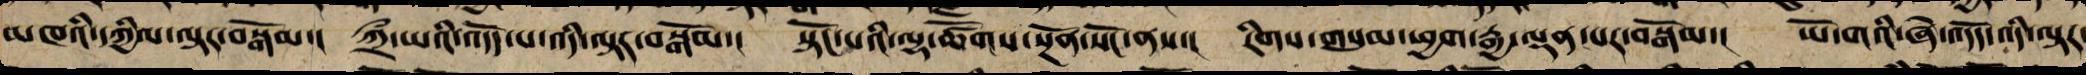མཁའི་དཀྱིལ་ལྟར་བསྒོམ་། ཀྲྀ་ཡའི་འདོད་པ་འདི་ལྟར་བསྒོམ་། སྟོང་པའི་ལྷ་ཚོགས་སྔོན་སོང་ནས་། རིགས་གསུམ་ཕྱག་རྒྱ་ལྡན་པར་བསྒོམ་། ཡོ་གའི་ཞེ་འདོད་འདི་ལྟར་
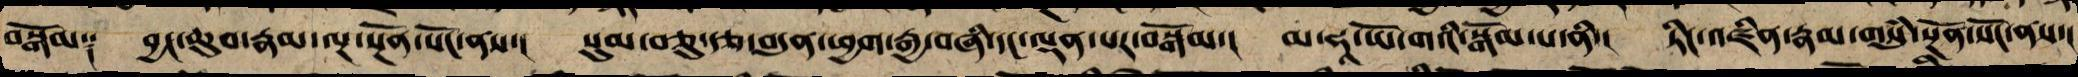བསྒོམ༑ བྱང་ཆུབ་རྣམ་ལྔ་སྔོན་སོང་ནས་། སུམ་བཅུ་རྩ་བདུན་ཕྱག་རྒྱ་བཞི་དང་ལྡན་པར་བསྒོམ་། མ་ཧཱ་ཡོ་གའི་བསྒོམ་པ་ནི་། ཏིང་འཛིན་རྣམ་གསུཾ་སྔོན་སོང་ནས་།
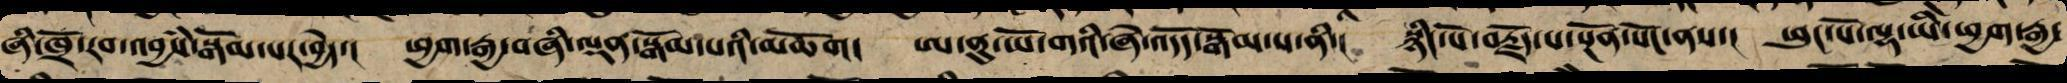ཞི་ཁྲོ་རབ་འབྱཾས་སྒོམ་པར་བྱེད་། ཕྱག་རྒྱ་བཞི་ལྡན་སྒོམ་པའི་མཆོག། ཨ་ནུ་ཡོ་གའི་ཞེ་འདོད་སྒོམ་པ་ནི་། སྙིང་པོ་བརྗོད་པ་སྔོན་སོང་ནས་། ཕུང་པོ་ལྷ་ཡི་ཕྱག་རྒྱ་
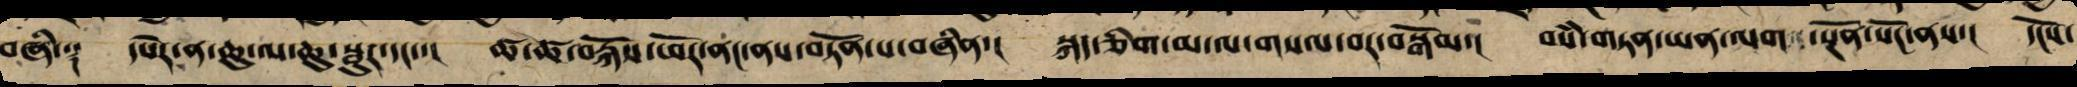བཞི༑ དཔེར་ན་ཆུ་ལས་ཆུ་བུར་དང་་། ཚྭ་ཚྭ་བརྐོས་ཕོར་ནང་ནས་བཏོན་པ་བཞིན་། སྐད་ཅིག་མ་ལ་གསལ་བར་བསྒོམ་། བསཾ་གཏན་ཡན་ལག་སྔོན་སོང་ནས་། དངོས་
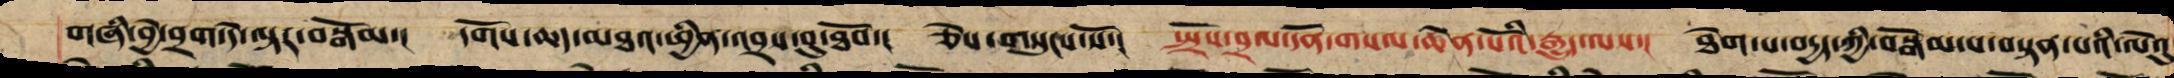གཞི་བྱེ་བྲག་དེ་ལྟར་བསྒོམ་། དགོས་ཆད་མཐར་ཕྱིན་འབྲས་བུ་ཐོབ་། ཅེས་གསུངས་སོ་། སྤྲོས་བྲལ་དོན་གསལ་ཆེན་པོའི་རྒྱུད་ལས་། ཐེག་པ་བདྱད་ཀྱི་བསྒོམ་པ་བསྟན་པའི་ལེའུ་
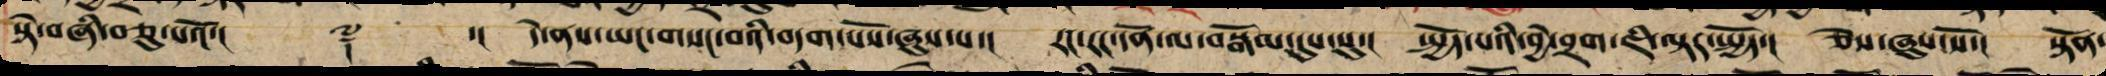སྟེ་བཞི་བཅུ་པའོ་།། ༈ ་།། དེ་ནས་ཡང་གསང་བའི་བདག་པོས་ཞུས་པ་། རང་རང་དོན་ལ་བསྒོམ་དུས་སུ་། སྤྱོད་པའི་བྱེ་བྲག་ཇི་ལྟར་སྤྱད་། ཅེས་ཞུས་སོ་། སྟོན་
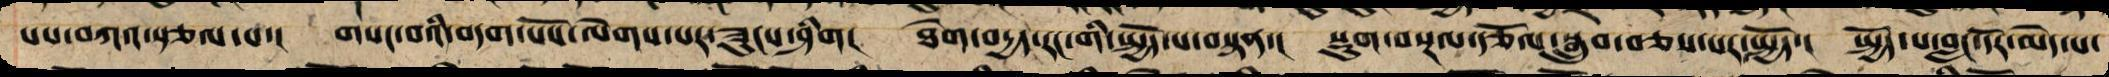པས་བཀའ་སྩལ་པ་། གསང་བའི་བདག་པོ་ལེགས་པར་ཟུངས་ཞིག། ཐེག་བདྱད་རང་གི་སྤྱོད་པ་བསྟན་། སྡུག་བསྔལ་རྩོལ་སྒྲུབ་བཅས་པ་སྤྱོད་། སྤྱོད་པ་བླང་དོར་མེད་པ་
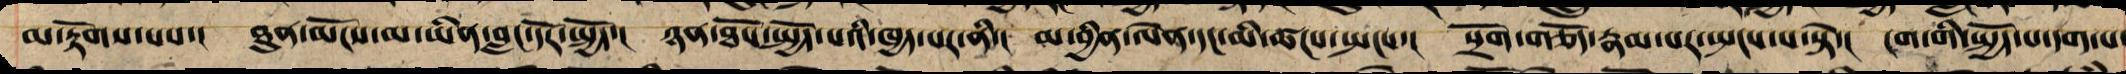མ་རྟོགས་པས་། ཐུན་མོང་མ་ཡིན་བླང་དོར་སྤྱོད་། ཉན་ཐོས་སྤྱོད་པའི་ཁྱད་པར་ནི་། མ་བྱིན་ལེན་དང་མི་ཚངས་སྤངས་། སྲོག་གཅོད་རྣམ་པར་སྤངས་པ་སྟེ་། ངག་གི་སྤྱོད་པ་དག་པ་
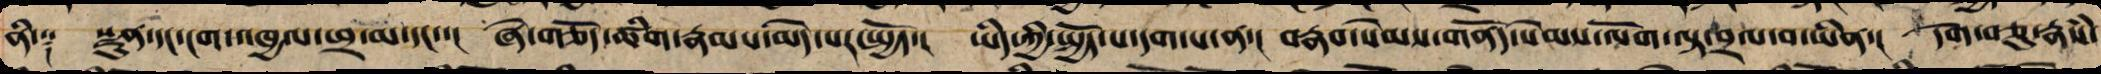ནི༑ སྫུན་དང་ངག་འཁྱལ་ཕྲ་མ་དང་་། ཞེ་གཅོད་ཚིག་རྣམས་མེད་པར་སྤྱོད་། ཡིད་ཀྱི་སྤྱོད་པ་དག་པ་ནི་། བརྣབ་སེམས་གནོད་སེམས་ལོག་ལྟ་བྲལ་བ་ཡིན་། དགེ་བཅུ་རྣཾས་
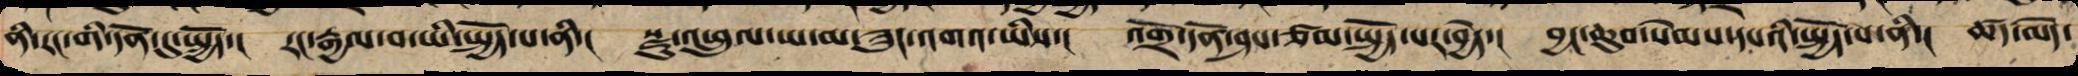ནི་རང་གིདོན་དུ་སྤྱོད་། རང་རྒྱལ་བ་ཡི་སྤྱོད་པ་ནི་། སྫུ་འཕྲུལ་ཡ་མ་ཟུང་འགའ་ཡིས་། འགྲོ་དོན་ཤས་ཙམ་སྤྱོད་པར་བྱེད་། བྱང་ཆུབ་སེམས་དཔའི་སྤྱོད་པ་ནི་། ཚད་མེད་
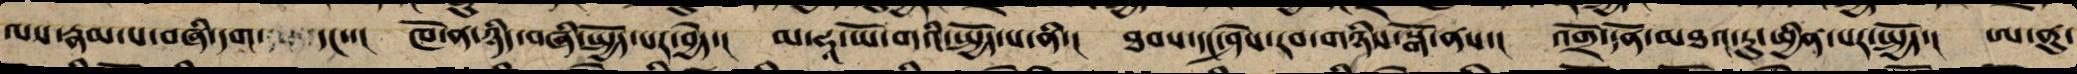ལས་རྣམ་པ་བཞི་དག་དང་་། ཁོ་ན་ཉིད་བཞི་སྤྱོད་པར་བྱེད་། མ་ཧཱ་ཡོ་གའི་སྤྱོད་པ་ནི་། ཐབས་དང་ཤེས་རབ་གཉིས་སྒོ་ནས་། འགྲོ་དོན་མཐའ་རུ་ཕྱིན་པར་སྤྱོད་། ཨ་ནུ་
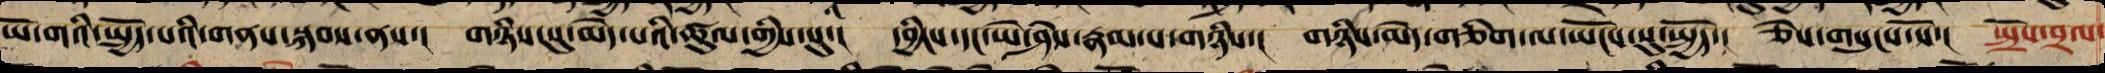ཡོ་གའི་སྤྱོད་པའི་གནས་སྐབས་ནི་། གཉིས་སུ་མེད་པའི་ཚུལ་གྱིས་སུ་། དབྱིངས་དང་ཡེ་ཤེས་རྣམ་པ་གཉིས་། གཉིས་མེད་གཅིག་ལ་ཡོངས་སུ་སྤྱོད་། ཅེས་གསུངས་སོ་། སྤྲོས་བྲལ་
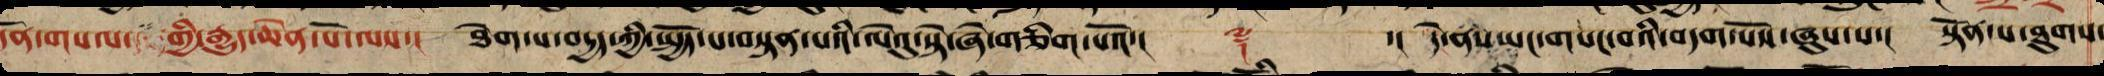དོན་གསལ་གྱི་རྒྱུད་ཆེན་པོ་ལས་། ཐེག་པ་བདྱད་ཀྱི་སྤྱོད་པ་བསྟན་པའི་ལེའུ་སྟེ་ཞེ་གཅིག་པའོ་།། ༈ ་།། དེ་ནས་ཡང་གསང་བའི་བདག་པོས་ཞུས་པ་། སྟོན་པ་ཐུགས་
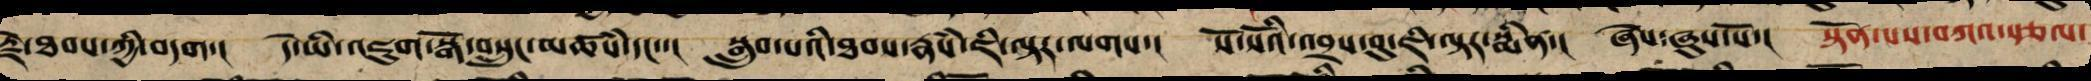རྗེ་ཐབས་ཀྱི་བདག་། དེ་ཡི་འཇུག་སྒོ་བསྲུང་མཚཾས་དང་་། སྒྲུབ་པའི་ཐབས་རྣཾས་ཇི་ལྟར་ལགས་། སོ་སོའི་འབྲས་བུ་ཅི་ལྟར་སྨིན་། ཞེས་ཞུས་སོ་། སྟོན་པས་བཀའ་སྩལ་
